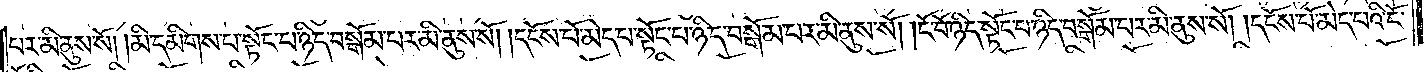པར་མི་ནུས་སོ། །མི་དམིགས་པ་སྟོང་པ་ཉིད་བསྒོམ་པར་མི་ནུས་སོ། །དངོས་པོ་མེད་པ་སྟོང་པ་ཉིད་བསྒོམ་པར་མི་ནུས་སོ། །ངོ་བོ་ཉིད་སྟོང་པ་ཉིད་བསྒོམ་པར་མི་ནུས་སོ། །དངོས་པོ་མེད་པའི་ངོ་
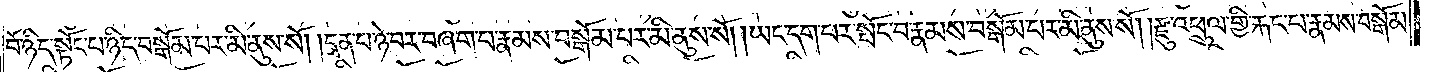བོ་ཉིད་སྟོང་པ་ཉིད་བསྒོམ་པར་མི་ནུས་སོ། །དྲན་པ་ཉེ་བར་བཞག་པ་རྣམས་བསྒོམ་པར་མི་ནུས་སོ། །ཡང་དག་པར་སྤོང་བ་རྣམས་བསྒོམ་པར་མི་ནུས་སོ། །རྫུ་འཕྲུལ་གྱི་རྐང་པ་རྣམས་བསྒོམ་
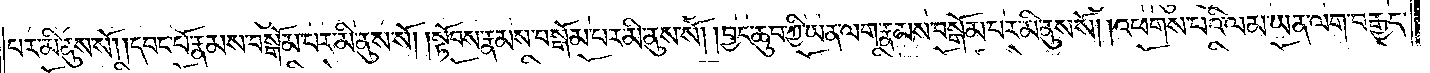པར་མི་ནུས་སོ། །དབང་པོ་རྣམས་བསྒོམ་པར་མི་ནུས་སོ། །སྟོབས་རྣམས་བསྒོམ་པར་མི་ནུས་སོ། །བྱང་ཆུབ་ཀྱི་ཡན་ལག་རྣམས་བསྒོམ་པར་མི་ནུས་སོ། །འཕགས་པའི་ལམ་ཡན་ལག་བརྒྱད་
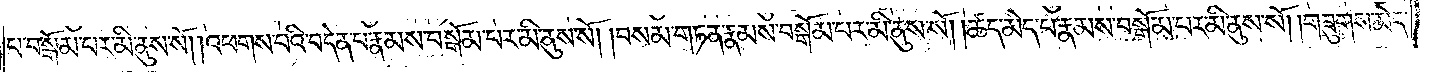པ་བསྒོམ་པར་མི་ནུས་སོ། །འཕགས་པའི་བདེན་པ་རྣམས་བསྒོམ་པར་མི་ནུས་སོ། །བསམ་གཏན་རྣམས་བསྒོམ་པར་མི་ནུས་སོ། །ཚད་མེད་པ་རྣམས་བསྒོམ་པར་མི་ནུས་སོ། །གཟུགས་མེད་
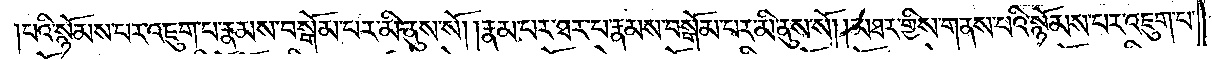པའི་སྙོམས་པར་འཇུག་པ་རྣམས་བསྒོམ་པར་མི་ནུས་སོ། །རྣམ་པར་ཐར་པ་རྣམས་བསྒོམ་པར་མི་ནུས་སོ། །མཐར་གྱིས་གནས་པའི་སྙོམས་པར་འཇུག་པ་
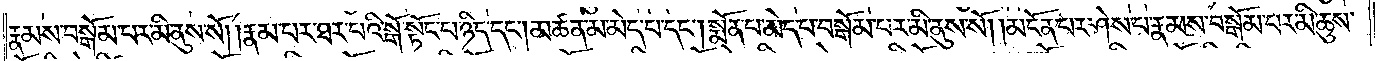རྣམས་བསྒོམ་པར་མི་ནུས་སོ། །རྣམ་པར་ཐར་པའི་སྒོ་སྟོང་པ་ཉིད་དང༌། མཚན་མ་མེད་པ་དང༌། སྨོན་པ་མེད་པ་བསྒོམ་པར་མི་ནུས་སོ། །མངོན་པར་ཤེས་པ་རྣམས་བསྒོམ་པར་མི་ཆུས་
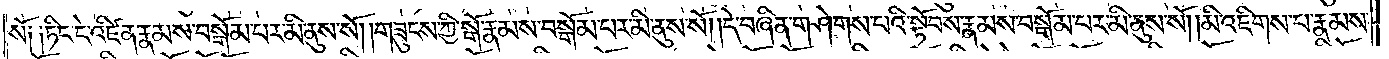སོ༑ ༑ཏིང་ངེ་འཛིན་རྣམས་བསྒོམ་པར་མི་ནུས་སོ། །གཟུངས་ཀྱི་སྒོ་རྣམས་བསྒོམ་པར་མི་ནུས་སོ། །དེ་བཞིན་གཤེགས་པའི་སྟོབས་རྣམས་བསྒོམ་པར་མི་ནུས་སོ། །མི་འཇིགས་པ་རྣམས་
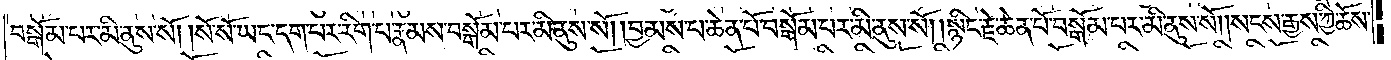བསྒོམ་པར་མི་ནུས་སོ། །སོ་སོ་ཡང་དག་པར་རིག་པར་ནམས་བསྒོམ་པར་མི་ནུས་སོ། །བྱམས་པ་ཆེན་པོ་བསྒོམ་པར་མི་ནུས་སོ། །སྙིང་རྗེ་ཆེན་པོ་བསྒོམ་པར་མི་ནུས་སོ། །སངས་རྒྱས་ཀྱི་ཆོས་
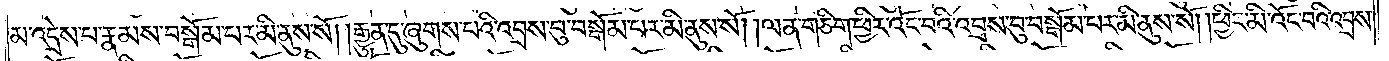མ་འདྲེས་པ་རྣམས་བསྒོམ་པར་མི་ནུས་སོ། །རྒྱུན་དུ་ཞུགས་པའི་འབྲས་བུ་བསྒོམ་པར་མི་ནུས་སོ། །ལན་ཅིག་ཕྱིར་འོང་བའི་འབྲས་བུ་བསྒོམ་པར་མི་ནུས་སོ། །ཕྱིར་མི་འོང་བའི་འབྲས་
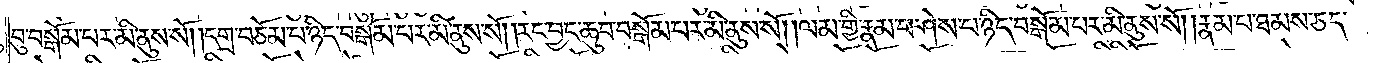བུ་བསྒོམ་པར་མི་ནུས་སོ། །དགྲ་བཅོམ་པ་ཉིད་བསྒོམ་པར་མི་ནུས་སོ། །རང་བྱང་ཆུབ་བསྒོམ་པར་མི་ནུས་སོ། །ལམ་གྱི་རྣམ་པ་ཤེས་པ་ཉིད་བསྒོམ་པར་མི་ནུས་སོ། །རྣམ་པ་ཐམས་ཅད་
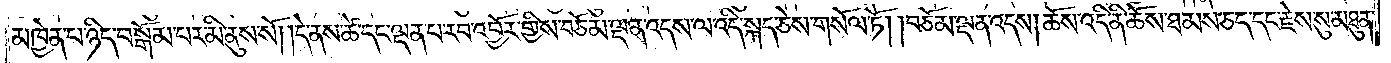མཁྱེན་པ་ཉིད་བསྒོམ་པར་མི་ནུས་སོ། །དེ་ནས་ཚེ་དང་ལྡན་པ་རབ་འབྱོར་གྱིས་བཅོམ་ལྡན་འདས་ལ་འདི་སྐད་ཅེས་གསོལ་ཏོ། །བཅོམ་ལྡན་འདས་ཆོས་འདི་ནི་ཆོས་ཐམས་ཅད་དང་རྗེས་སུ་མཐུན་
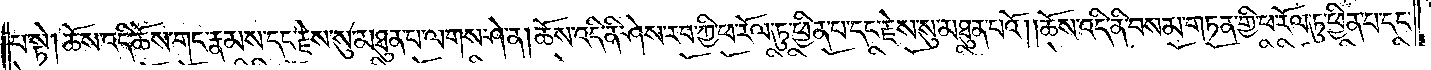པ་སྟེ། ཆོས་འདི་ཆོས་གང་རྣམས་དང་རྗེས་སུ་མཐུན་པ་ལགས་ཤེ་ན། ཆོས་འདི་ནི་ཤེས་རབ་ཀྱི་ཕ་རོལ་ཏུ་ཕྱིན་པ་དང་རྗེས་སུ་མཐུན་པའོ། །ཆོས་འདི་ནི་བསམ་གཏན་གྱི་ཕ་རོལ་ཏུ་ཕྱིན་པ་དང་
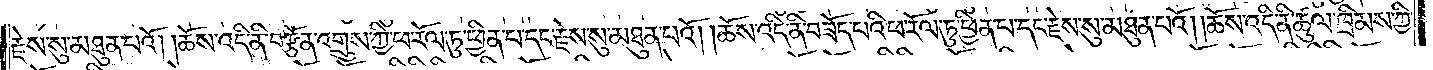རྗེས་སུ་མཐུན་པའོ། །ཆོས་འདི་ནི་བརྩོན་འགྲུས་ཀྱི་ཕ་རོལ་ཏུ་ཕྱིན་པ་དང་རྗེས་སུ་མཐུན་པའོ། །ཆོས་འདི་ནི་བཟོད་པའི་ཕ་རོལ་ཏུ་ཕྱིན་པ་དང་རྗེས་སུ་མཐུན་པའོ། །ཆོས་འདི་ནི་ཚུལ་ཁྲིམས་ཀྱི་
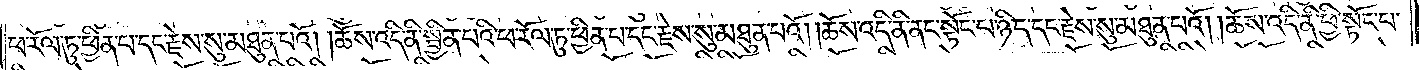ཕ་རོལ་ཏུ་ཕྱིན་པ་དང་རྗེས་སུ་མཐུན་པའོ། །ཆོས་འདི་ནི་སྦྱིན་པའི་ཕ་རོལ་ཏུ་ཕྱིན་པ་དང་རྗེས་སུ་མཐུན་པའོ། །ཆོས་འདི་ནི་ནང་སྟོང་པ་ཉིད་དང་རྗེས་སུ་མཐུན་པའོ། །ཆོས་འདི་ནི་ཕྱི་སྟོང་པ་
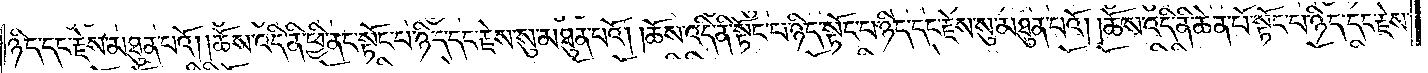ཉིད་དང་རྗེས་སུ་མཐུན་པའོ། །ཆོས་འདི་ནི་ཕྱི་ནང་སྟོང་པ་ཉིད་དང་རྗེས་སུ་མཐུན་པའོ། །ཆོས་འདི་ནི་སྟོང་པ་ཉིད་སྟོང་པ་ཉིད་དང་རྗེས་སུ་མཐུན་པའོ། །ཆོས་འདི་ནི་ཆེན་པོ་སྟོང་པ་ཉིད་དང་རྗེས་
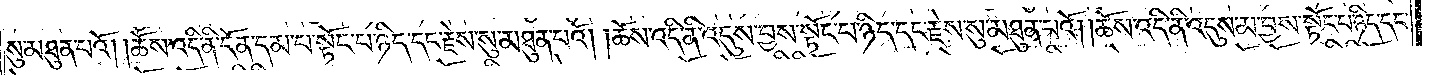སུ་མཐུན་པའོ། །ཆོས་འདི་ནི་དོན་དམ་པ་སྟོང་པ་ཉིད་དང་རྗེས་སུ་མཐུན་པའོ། །ཆོས་འདི་ནི་འདུས་བྱས་སྟོང་པ་ཉིད་དང་རྗེས་སུ་མཐུན་པའོ། །ཆོས་འདི་ནི་འདུས་མ་བྱས་སྟོང་པ་ཉིད་དང་
